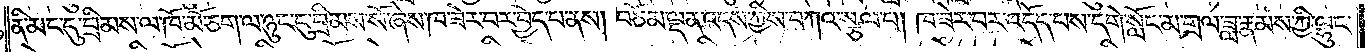ནི་མང་དུ་བྲིམས་ལ་ཁོ་མོ་ཅག་ལ་ཉུང་ངུ་བྲིམས་སོ་ཞེས་ཁ་ཟེར་བར་བྱེད་པ་ནས། བཅོམ་ལྡན་འདས་ཀྱིས་བཀའ་སྩལ་པ། ཁ་ཟེར་བར་འདོད་པས་དགེ་སློང་མ་གྲལ་ཟླ་རྣམས་ཀྱི་ལྷུང་
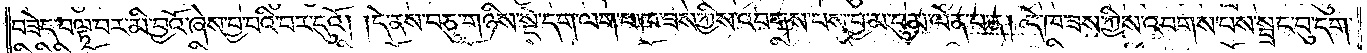བཟེད་བལྟ་བར་མི་བྱའོ་ཞེས་བྱ་བའི་བར་དུའོ། །དེ་ནས་བཅུ་གཉིས་སྡེ་དག་ལག་པ་ཁ་ཟས་ཀྱིས་འབགས་པས་བྱ་མ་བུ་མ་ལེན་པ་ན། དེ་ཁ་ཟས་ཀྱིས་འབགས་པས་སྦྲང་བུ་དག་
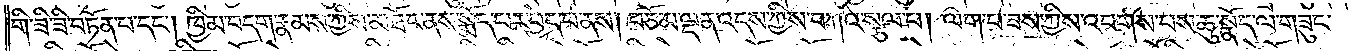གི་ཟི་ཟི་བཏོན་པ་དང༌། ཁྱིམ་བདག་རྣམས་ཀྱིས་མཐོང་ནས་སྨོད་པར་བྱེད་པ་ནས། བཅོམ་ལྡན་འདས་ཀྱིས་བཀའ་སྩལ་པ། ལག་པ་ཟས་ཀྱིས་འབགས་པས་ཆུ་སྣོད་ལ་གཟུང་
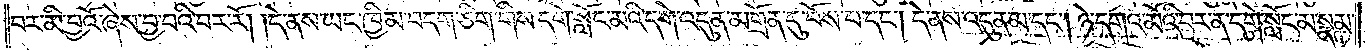བར་མི་བྱའོ་ཞེས་བྱ་བའི་བར་རོ། །དེ་ནས་ཡང་ཁྱིམ་བདག་ཅིག་གིས་དགེ་སློང་མའི་དགེ་འདུན་མགྲོན་དུ་བོས་པ་དང༌། དེ་ནས་འདུན་མ་དང༌། ཉེ་དགའ་མོའི་བར་ན་དགེ་སློང་མ་སྣམ་
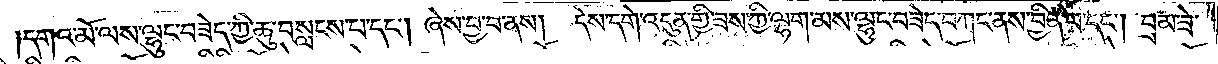།དགའ་མོ་ལས་ལྷུང་བཟེད་ཀྱི་ཆུ་བསླངས་པ་དང༌། ཞེས་བྱ་བ་ནས། དེས་དགེ་འདུན་གྱི་ཟས་ཀྱི་ལྷག་མས་ལྷུང་བཟེད་བཀང་ནས་བྱིན་པ་དང༌། བྲམ་ཟེ་
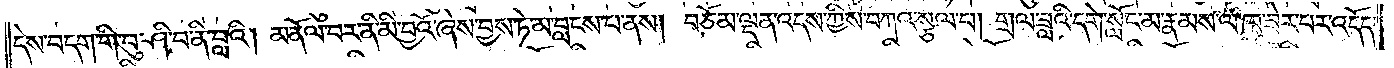དེས་བདག་གི་བུ་ཤི་བ་ནི་བླའི། མནོལ་བར་ནི་མི་བྱའོ་ཞེས་བྱས་ཏེ་མ་བླངས་པ་ནས། བཅོམ་ལྡན་འདས་ཀྱིས་བཀའ་སྩལ་པ། གྲལ་ཟླའི་དགེ་སློང་མ་རྣམས་ལ་ཁ་ཟེར་བར་འདོད་
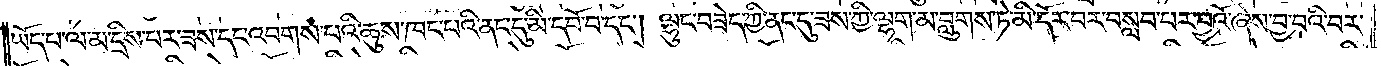ཡོད་པ་ལ་མ་དྲིས་པར་ཟས་དང་འབགས་པའི་ཆུས་ཁང་པའི་ནང་དུ་མི་དབོ་བ་དང༌། ལྷུང་བཟེད་ཀྱི་ནང་དུ་ཟས་ཀྱི་ལྷག་མ་བླུགས་ཏེ་མི་དོར་བར་བསླབ་པར་བྱའོ་ཞེས་བྱ་བའི་བར་
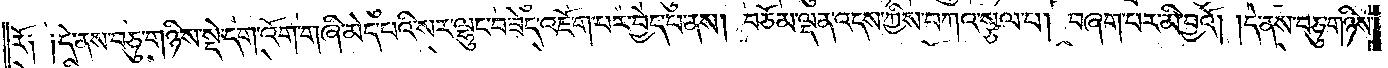རོ༑ ༑དེ་ནས་བཅུ་གཉིས་སྡེ་དག་འོག་གཞི་མེད་པའི་སར་ལྷུང་བཟེད་འཇོག་པར་བྱེད་པ་ནས། བཅོམ་ལྡན་འདས་ཀྱིས་བཀའ་སྩལ་པ། བཞག་པར་མི་བྱའོ། །དེ་ནས་བཅུ་གཉིས་
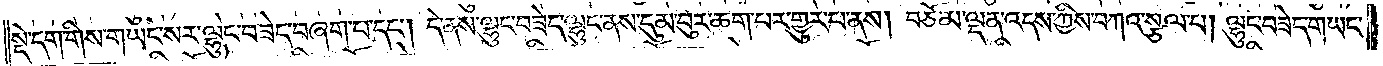སྡེ་དག་གིས་གཡང་སར་ལྷུང་བཟེད་བཞག་པ་དང༌། དེ་ནས་ལྷུང་བཟེད་ལྷུང་ནས་དུམ་བུར་ཆག་པར་གྱུར་པ་ནས། བཅོམ་ལྡན་འདས་ཀྱིས་བཀའ་སྩལ་པ། ལྷུང་བཟེད་གཡང་
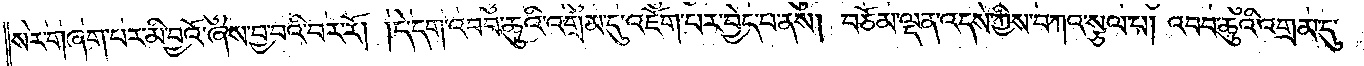སར་གཞག་པར་མི་བྱའོ་ཞེས་བྱ་བའི་བར་རོ། །དེ་དག་འབབ་ཆུའི་འགྲམ་དུ་འཇོག་པར་བྱེད་པ་ནས། བཅོམ་ལྡན་འདས་ཀྱིས་བཀའ་སྩལ་པ། འབབ་ཆུའི་འགྲམ་དུ་
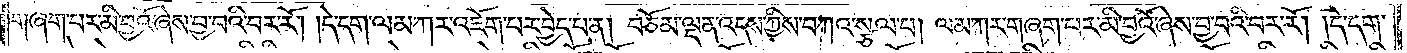གཞག་པར་མི་བྱའོ་ཞེས་བྱ་བའི་བར་རོ། །དེ་དག་ལམ་ཀར་འཇོག་པར་བྱེད་པ་ན། བཅོམ་ལྡན་འདས་ཀྱིས་བཀའ་སྩལ་པ། ལམ་ཀར་གཞག་པར་མི་བྱའོ་ཞེས་བྱ་བའི་བར་རོ། །དེ་དག་
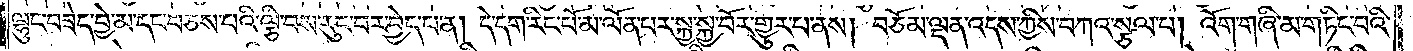ལྷུང་བཟེད་བྱེ་མ་དང་བཅས་པའི་ལྕི་བས་རུང་བར་བྱེད་པ་ན། དེ་དག་རིང་པོ་མ་ལོན་པར་སྐྱ་སྐྱ་པོར་གྱུར་པ་ནས། བཅོམ་ལྡན་འདས་ཀྱིས་བཀའ་སྩལ་པ། འོག་གཞི་མ་གཏིང་བའི་
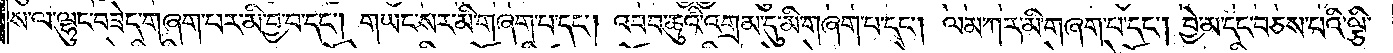ས་ལ་ལྷུང་བཟེད་གཞག་པར་མི་བྱ་བ་དང༌། གཡང་སར་མི་གཞག་པ་དང༌། འབབ་ཆུའི་འགྲམ་དུ་མི་གཞག་པ་དང༌། ལམ་ཀར་མི་གཞག་པ་དང༌། བྱེ་མ་དང་བཅས་པའི་ལྕི་
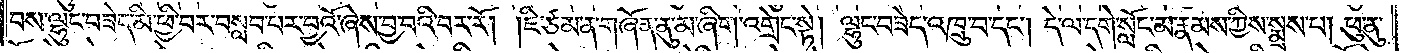བས་ལྷུང་བཟེད་མི་ཕྱི་བར་བསླབ་པར་བྱའོ་ཞེས་བྱ་བའི་བར་རོ། །ཇི་ཙམ་ན་གཞོན་ནུ་མ་ཞིག་འགྲེང་སྟེ། ལྷུང་བཟེད་འཁྲུ་བ་དང༌། དེ་ལ་དགེ་སློང་མ་རྣམས་ཀྱིས་སྨྲས་པ། ཕུ་ནུ་
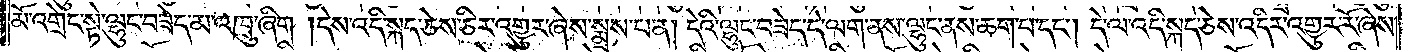མོ་འགྲེང་སྟེ་ལྷུང་བཟེད་མ་འཁྲུ་ཞིག །དེས་འདི་སྐད་ཅེས་ཅིར་འགྱུར་ཞེས་སྨྲས་པ་ན། དེའི་ལྷུང་བཟེད་དེ་ལག་ནས་ལྷུང་ནས་ཆག་པ་དང༌། དེ་ལ་འདི་སྐད་ཅེས་འདིར་འགྱུར་རོ་ཞེས་
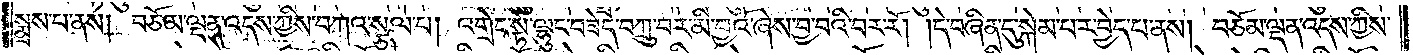སྨྲས་པ་ནས། བཅོམ་ལྡན་འདས་ཀྱིས་བཀའ་སྩལ་པ། འགྲེང་སྟེ་ལྷུང་བཟེད་བཀྲུ་བར་མི་བྱའོ་ཞེས་བྱ་བའི་བར་རོ། །དེ་བཞིན་དུ་སྐེམ་པར་བྱེད་པ་ནས། བཅོམ་ལྡན་འདས་ཀྱིས་
